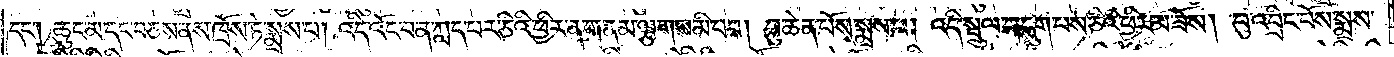དང༌། ཆུང་མ་དང་བཅས་ནས་ཁྲོས་ཏེ་སྨྲས་པ། འདི་འོང་བ་ན་ཀླད་པར་ཅིའི་ཕྱིར་ན་གནམ་ལྕགས་མི་བབ། བུ་ཆེན་པོས་སྨྲས་པ། འདི་སྦྲུལ་གདུག་པས་ཅིའི་ཕྱིར་མ་ཟོས། བུ་འབྲིང་པོས་སྨྲས་
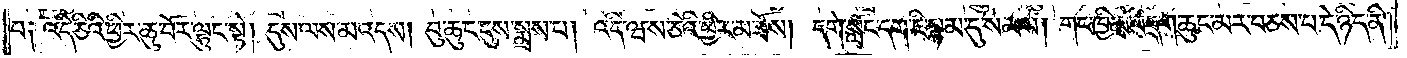པ༑ འདི་ཅིའི་ཕྱིར་ཆུ་བོར་ལྷུང་སྟེ། དུས་ལས་མ་འདས། བུ་ཆུང་ངུས་སྨྲས་པ། འདི་ཝས་ཅིའི་ཕྱིར་མ་ཟོས། དགེ་སློང་དག་ཇི་སྙམ་དུ་སེམས། གང་ཁྱིམ་བདག་ཆུང་མར་བཅས་པ་དེ་ཉིད་ནི་
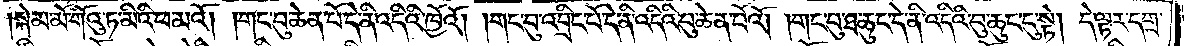སྐེམ་མོ་གོའུ་ཏ་མིའི་ཕ་མའོ། །གང་བུ་ཆེན་པོ་དེ་ནི་འདིའི་ཁྱོའོ། །གང་བུ་འབྲིང་པོ་དེ་ནི་འདིའི་བུ་ཆེན་པོའོ། །གང་བུ་ཐ་ཆུང་དེ་ནི་འདིའི་བུ་ཆུང་ངུ་སྟེ། དེ་ལྟར་དགྲ་
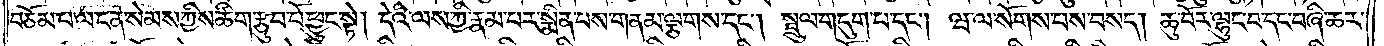བཅོམ་པ་ལ་ངན་སེམས་ཀྱིས་ཚིག་རྩུབ་པོ་ཕྱུང་སྟེ། དེའི་ལས་ཀྱི་རྣམ་པར་སྨིན་པས་གནམ་ལྕགས་དང༌། སྦྲུལ་གདུག་པ་དང༌། ཝ་ལ་སོགས་པས་བསད། ཆུ་བོར་ལྷུང་བ་དང་བཞི་ཆར་
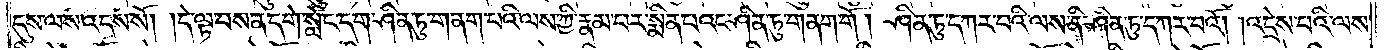དུས་ལས་འདས་སོ། །དེ་ལྟ་བས་ན་དགེ་སློང་དག་ཤིན་ཏུ་གནག་པའི་ལས་ཀྱི་རྣམ་པར་སྨིན་པའང་ཤིན་ཏུ་གནག་གོ། ཤིན་ཏུ་དཀར་བའི་ལས་ནི་ཤིན་ཏུ་དཀར་བའོ། །འདྲེས་པའི་ལས་
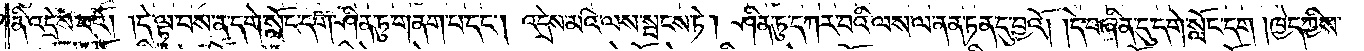ནི་འདྲེས་པའོ། །དེ་ལྟ་བས་ན་དགེ་སློང་དག་ཤིན་ཏུ་གནག་པ་དང༌། འདྲེས་མའི་ལས་སྤངས་ཏེ། ཤིན་ཏུ་དཀར་བའི་ལས་ལ་ནན་ཏན་དུ་བྱའོ། །དེ་བཞིན་དུ་དགེ་སློང་དག །ཁྱེད་ཀྱིས་
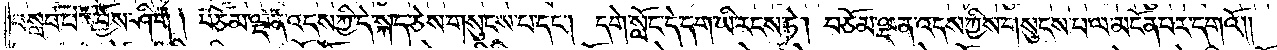བསླབ་པར་བྱོས་ཤིག། བཅོམ་ལྡན་འདས་ཀྱི་དེ་སྐད་ཅེས་གསུངས་པ་དང༌། དགེ་སློང་དེ་དག་ཡི་རངས་ཏེ། བཅོམ་ལྡན་འདས་ཀྱིས་གསུངས་པ་ལ་མངོན་པར་དགའོ༎
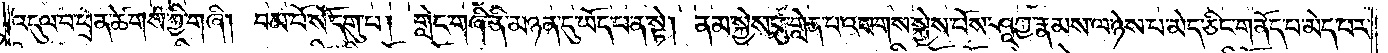འདུལ་བ་ཕྲན་ཚེགས་ཀྱི་གཞི། བམ་པོ་སོ་དགུ་པ། གླེང་གཞི་ནི་མཉན་དུ་ཡོད་པ་ན་སྟེ། ནམ་སྐྱེས་བུ་གླེན་པ་འཕགས་སྐྱེས་པོས་ཤཱཀྱ་རྣམས་ལ་ཉེས་པ་མེད་ཅིང་གནོད་པ་མེད་པར་
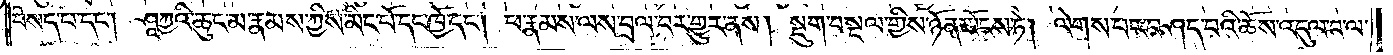བསད་པ་དང༌། ཤཱཀྱའི་ཆུང་མ་རྣམས་ཀྱིས་མིང་པོ་དང་ཁྱོ་དང༌། ཕ་རྣམས་ལས་བྲལ་བར་གྱུར་ནས། སྡུག་བསྔལ་གྱིས་ཉོན་མོངས་ཏེ། ལེགས་པར་བཤད་པའི་ཆོས་འདུལ་བ་ལ་
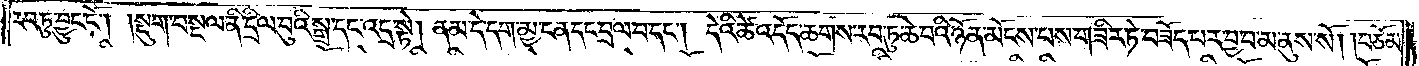རབ་ཏུ་བྱུང་ངོ༌། །སྡུག་བསྔལ་ནི་དྲིལ་བུའི་སྒྲ་དང་འདྲ་སྟེ། ནམ་དེ་དག་མྱ་ངན་དང་བྲལ་བ་དང༌། དེའི་ཚེ་འདོད་ཆགས་རབ་ཏུ་ཆེ་བའི་ཉོན་མོངས་པས་གཟིར་ཏེ་བཟོད་པར་བྱ་བ་མ་ནུས་སོ། །བཅོམ་
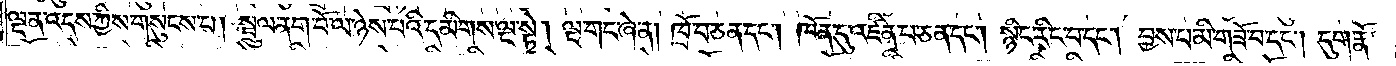ལྡན་འདས་ཀྱིས་གསུངས་པ། སྦྲུལ་ནག་པོ་ལ་ཉེས་པའི་དམིགས་ལྔ་སྟེ། ལྔ་གང་ཞེ་ན། ཁྲོ་བ་ཅན་དང༌། ཁོན་དུ་འཛིན་པ་ཅན་དང༌། སྙིང་རིང་བ་དང༌། བྱས་པ་མི་གཟོ་བ་དང༌། དུག་རྣོ་
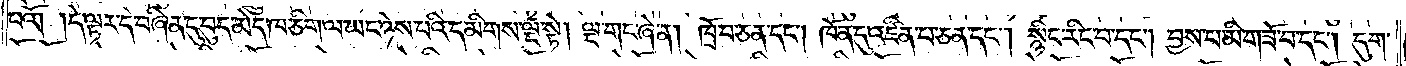བའོ། །དེ་ལྟར་དེ་བཞིན་དུ་བུད་མེད་ཁ་ཅིག་ལ་ཡང་ཉེས་པའི་དམིགས་ལྔ་སྟེ། ལྔ་གང་ཞེ་ན། ཁྲོ་བ་ཅན་དང༌། ཁོན་དུ་འཛིན་པ་ཅན་དང༌། སྙིང་རིང་བ་དང༌། བྱས་པ་མི་གཟོ་བ་དང༌། དུག་
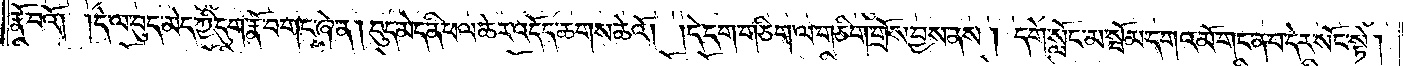རྣོ་བའོ། །དེ་ལ་བུད་མེད་ཀྱི་དུག་རྣོ་བ་གང་ཞེ་ན། བུད་མེད་ནི་ཕལ་ཆེར་འདོད་ཆགས་ཆེའོ། །དེ་དག་གཅིག་ལ་གཅིག་གྲོས་བྱས་ནས། དགེ་སློང་མ་སྦོམ་དགའ་མོ་གང་ན་བ་དེར་སོང་སྟེ།
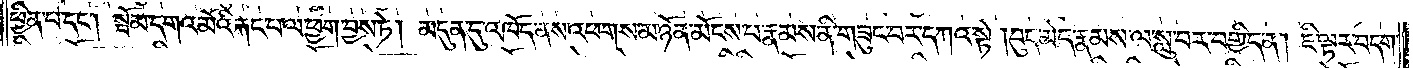ཕྱིན་པ་དང༌། སྦོམ་དགའ་མོའི་རྐང་པ་ལ་ཕྱག་བྱས་ཏེ། མདུན་དུ་འཁོད་ནས་འཕགས་མ་ཉོན་མོངས་པ་རྣམས་ནི་གཟུང་བར་དཀའ་སྟེ་།བུད་མེད་རྣམས་ལ་སླུ་བར་བགྱིད་ན། ཇི་ལྟར་བདག་
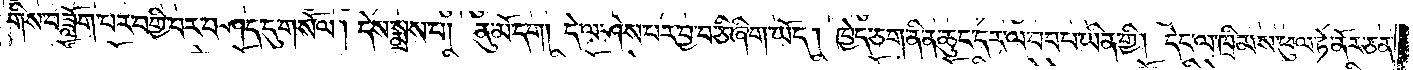གིས་བཟློག་པར་བགྱི་བར་བཤད་དུ་གསོལ། དེས་སྨྲས་པ། ནུ་མོ་དག། དེ་ལ་ཤེས་པར་བྱ་བ་ཅི་ཞིག་ཡོད། ཁྱེད་ཅག་ནི་ན་ཆུང་དར་ལ་བབ་པ་ཡིན་གྱི། དེང་ལ་ཁྲིམས་ཕུལ་ཏེ་ནོར་ཅན་
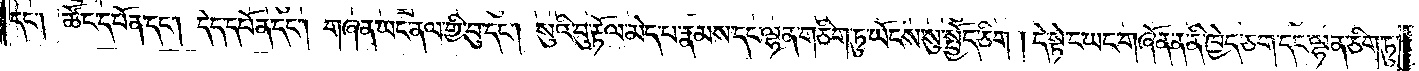དང༌། ཚོང་དཔོན་དང༌། དེད་དཔོན་དང༌། གཞན་ཡང་ནལ་གྱི་བུ་དང༌། སུའི་བུ་རྟོལ་མེད་པ་རྣམས་དང་ལྷན་གཅིག་ཏུ་ཡོངས་སུ་སྤྱོད་ཅིག །དེ་སྟེ་ང་ཡང་གཞོན་ན་ནི་ཁྱེད་ཅག་དང་ལྷན་ཅིག་ཏུ་
